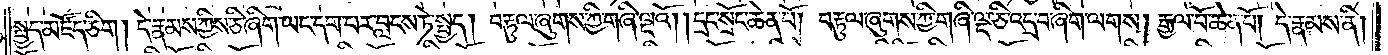སྤྱད་མཛོད་ཅིག། དེ་རྣམས་ཀྱིས་ཅི་ཞིག་ཡང་དག་པར་བླངས་ཏེ་སྤྱད། བརྟུལ་ཞུགས་ཀྱི་གཞི་ལྔའོ། །དྲང་སྲོང་ཆེན་པོ། བརྟུལ་ཞུགས་ཀྱི་གཞི་ལྔ་ཅི་འདྲ་བ་ཞིག་ལགས། རྒྱལ་པོ་ཆེན་པོ། དེ་རྣམས་ནི།
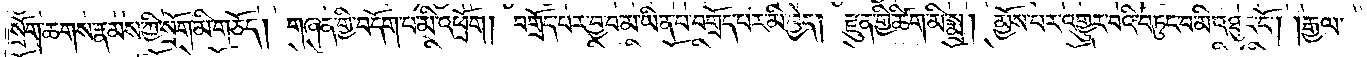སྲོག་ཆགས་རྣམས་ཀྱི་སྲོག་མི་གཅོད། གཞན་གྱི་བདོག་པ་མི་འཕྲོག། བགྲོད་པར་བྱ་བ་མ་ཡིན་པ་བགྲོད་པར་མི་བྱེད། རྫུན་གྱི་ཚིག་མི་སྨྲ། མྱོས་པར་འགྱུར་བའི་བཏུང་བ་མི་འཐུང་ངོ༌། །རྒྱལ་
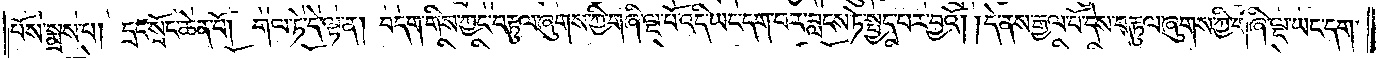པོས་སྨྲས་པ། དྲང་སྲོང་ཆེན་པོ། གལ་ཏེ་དེ་ལྟ་ན། བདག་གིས་ཀྱང་བརྟུལ་ཞུགས་ཀྱི་གཞི་ལྔ་པོ་འདི་ཡང་དག་པར་བླངས་ཏེ་སྤྱད་པར་བྱའོ། །དེ་ནས་རྒྱལ་པོ་དེས་བརྟུལ་ཞུགས་ཀྱི་གཞི་ལྔ་ཡང་དག་
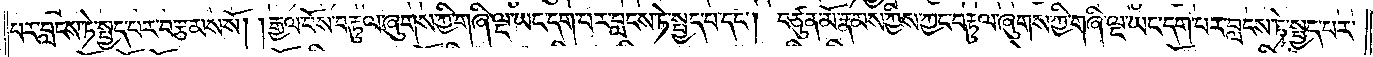པར་བླངས་ཏེ་སྤྱད་པར་བརྩམས་སོ། །རྒྱལ་པོས་བརྟུལ་ཞུགས་ཀྱི་གཞི་ལྔ་ཡང་དག་པར་བླངས་ཏེ་སྤྱད་པ་དང༌། བཙུན་མོ་རྣམས་ཀྱིས་ཀྱང་བརྟུལ་ཞུགས་ཀྱི་གཞི་ལྔ་ཡང་དག་པར་བླངས་ཏེ་སྤྱད་པར་
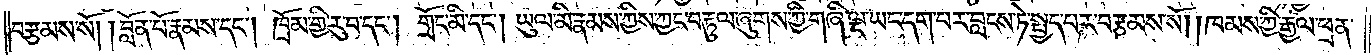བརྩམས་སོ། །བློན་པོ་རྣམས་དང༌། ཁྲོམ་གྱི་རུ་བ་དང༌། གྲོང་མི་དང༌། ཡུལ་མི་རྣམས་ཀྱིས་ཀྱང་བརྟུལ་ཞུགས་ཀྱི་གཞི་ལྔ་ཡང་དག་པར་བླངས་ཏེ་སྤྱད་པར་བརྩམས་སོ། །ཁམས་ཀྱི་རྒྱལ་ཕྲན་
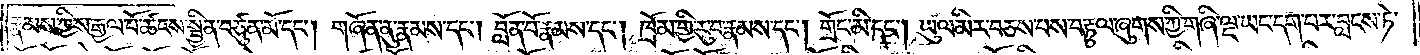རྣམས་ཀྱིས་རྒྱལ་པོ་ཚངས་སྦྱིན་བཙུན་མོ་དང༌། གཞོན་ནུ་རྣམས་དང༌། བློན་པོ་རྣམས་དང༌། ཁྲོམ་གྱི་རུ་བ་རྣམས་དང༌། གྲོང་མི་དང༌། ཡུལ་མིར་བཅས་པས་བརྟུལ་ཞུགས་ཀྱི་གཞི་ལྔ་ཡང་དག་པར་བླངས་ཏེ་
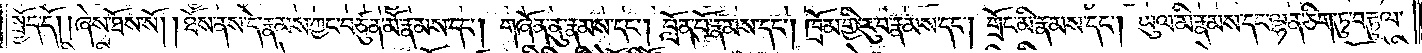སྤྱོད་དོ། །ཞེས་ཐོས་སོ། །ཐོས་ནས་དེ་རྣམས་ཀྱང་བཙུན་མོ་རྣམས་དང༌། གཞོན་ནུ་རྣམས་དང༌། བློན་པོ་རྣམས་དང༌། ཁྲོམ་གྱི་རུ་བ་རྣམས་དང༌། གྲོང་མི་རྣམས་དང༌། ཡུལ་མི་རྣམས་དང་ལྷན་ཅིག་ཏུ་བརྟུལ་
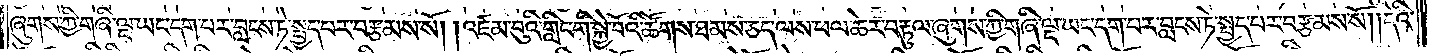ཞུགས་ཀྱི་གཞི་ལྔ་ཡང་དག་པར་བླངས་ཏེ་སྤྱད་པར་བརྩམས་སོ། །འཛམ་བུའི་གླིང་གི་སྐྱེ་བོའི་ཚོགས་ཐམས་ཅད་ལས་ཕལ་ཆེར་བརྟུལ་ཞུགས་ཀྱི་གཞི་ལྔ་ཡང་དག་པར་བླངས་ཏེ་སྤྱད་པར་བརྩམས་སོ། །དེའི་
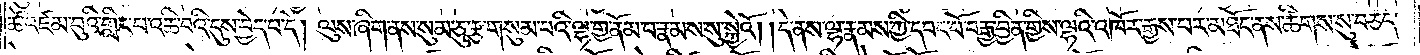ཚེ་འཛམ་བུའི་གླིང་པ་འཆི་བའི་དུས་བྱེད་པ་དེ། ལུས་ཞིག་ནས་སུམ་ཅུ་རྩ་གསུམ་པའི་ལྷ་གྱ་ནོམ་པ་རྣམས་སུ་སྐྱེའོ། །དེ་ནས་ལྷ་རྣམས་ཀྱི་དབང་པོ་བརྒྱ་བྱིན་གྱིས་ལྷའི་འཁོར་རྒྱས་པར་མཐོང་ནས་ཚིགས་སུ་བཅད་
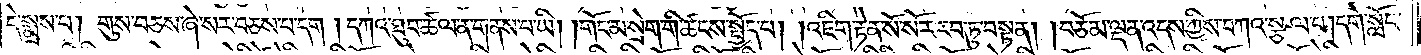དེ་སྨྲས་པ། གུས་བཅས་ཞེ་སར་བཅས་པ་དག། དཀའ་ཐུབ་ཚལ་ན་གནས་པ་ཡི། །གོང་མ་སྲེག་གི་ཚངས་སྤྱོད་པ། །འཇིག་རྟེན་སོ་སོར་རབ་ཏུ་བསྟན། །བཅོམ་ལྡན་འདས་ཀྱིས་བཀའ་སྩལ་པ། དགེ་སློང་
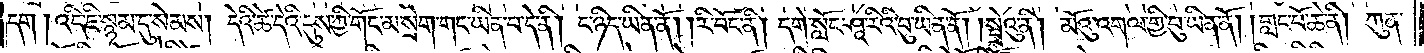དག། འདི་ཇི་སྙམ་དུ་སེམས། དེའི་ཚེ་དེའི་དུས་ཀྱི་གོང་མ་སྲེག་གང་ཡིན་པ་དེ་ནི། ང་ཉིད་ཡིན་ནོ། །རི་བོང་ནི། དགེ་སློང་ཤཱ་རིའི་བུ་ཡིན་ནོ། །སྤྲེའུ་ནི། མོའུ་གལ་གྱི་བུ་ཡིན་ནོ། །གླང་པོ་ཆེ་ནི། ཀུན་
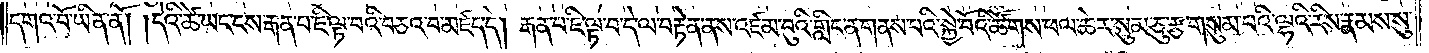དགའ་བོ་ཡིན་ནོ། །དེའི་ཚེ་ཡང་ངས་རྒན་པ་ཇི་ལྟ་བའི་བཅའ་བ་མཛད་དེ། རྒན་པ་ཇི་ལྟ་བ་དེ་ལ་བརྟེན་ནས་འཛམ་བུའི་གླིང་ན་གནས་པའི་སྐྱེ་བོའི་ཚོགས་ཕལ་ཆེར་སུམ་ཅུ་རྩ་གསུམ་པའི་ལྷའི་རིས་རྣམས་སུ་
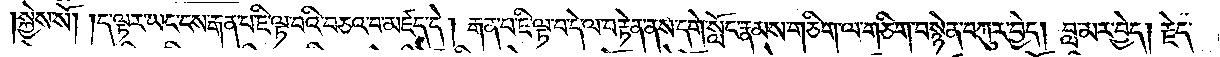།སྐྱེས་སོ། །ད་ལྟར་ཡང་ངས་རྒན་པ་ཇི་ལྟ་བའི་བཅའ་བ་མཛད་དེ། རྒན་པ་ཇི་ལྟ་བ་དེ་ལ་བརྟེན་ནས་དགེ་སློང་རྣམས་གཅིག་ལ་གཅིག་བསྙེན་བཀུར་བྱེད། བླ་མར་བྱེད། རྗེད་
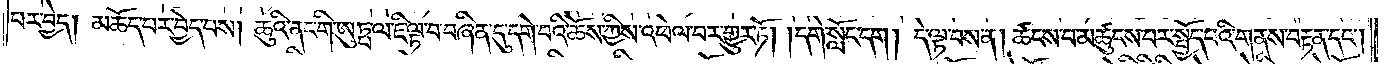པར་བྱེད། མཆོད་པ་བྱེད་པས། ཆུའི་ནང་གི་ཨུཏྤ་ལ་ཇི་ལྟ་བ་བཞིན་དུ་དགེ་བའི་ཆོས་ཀྱིས་འཕེལ་བར་གྱུར་ཏོ། །དགེ་སློང་དག། དེ་ལྟ་བས་ན། ཚངས་པ་མཚུངས་པར་སྤྱོད་པའི་གནས་བརྟན་དང༌།
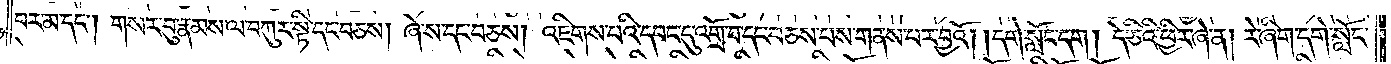བར་མ་དང༌། གསར་བུ་རྣམས་ལ་བཀུར་སྟི་དང་བཅས། ཞེ་ས་དང་བཅས། འཇིགས་པའི་དབང་དུ་འགྲོ་བ་དང་བཅས་པས་གནས་པར་བྱའོ། །དགེ་སློང་དག། དེ་ཅིའི་ཕྱིར་ཞེ་ན། རེ་ཞིག་དགེ་སློང་
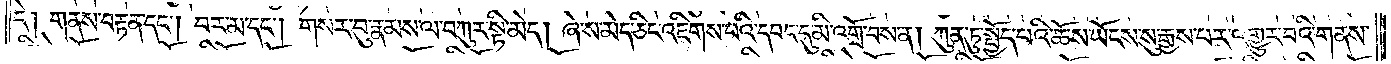དེ། གནས་བརྟན་དང༌། བར་མ་དང༌། གསར་བུ་རྣམས་ལ་བཀུར་སྟི་མེད། ཞེ་ས་མེད་ཅིང་འཇིགས་པའི་དབང་དུ་མི་འགྲོ་བས་ན། ཀུན་ཏུ་སྤྱོད་པའི་ཆོས་ཡོངས་སུ་རྒྱས་པར་འགྱུར་བའི་གནས་
